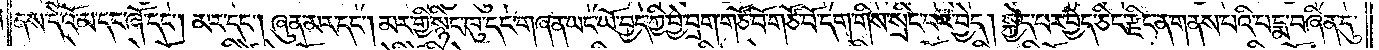ནས་དེ་འོ་མ་དང་ཞོ་དང༌། མར་དང༌། ཞུན་མར་དང༌། མར་གྱི་སྙིང་ཁུ་དང་གཞན་ཡང་ཡོ་བྱད་ཀྱི་བྱེ་བྲག་གཙོ་བོ་གཙོ་བོ་དག་གིས་སྲིང་བར་བྱེད། སྐྱེད་པར་བྱེད་ཅིང་རྫིང་ན་གནས་པའི་པདྨ་བཞིན་དུ་
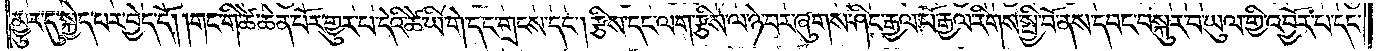མྱུར་དུ་སྐྱེད་པར་བྱེད་དོ། །གང་གི་ཚེ་ཆེན་པོར་གྱུར་པ་དེའི་ཚེ་ཡི་གེ་དང་གྲངས་དང༌། རྩིས་དང་ལག་རྩིས་ལ་ཉེ་བར་ཞུགས་ཤིང་རྒྱལ་པོ་རྒྱལ་རིགས་སྤྱི་བོ་ནས་དབང་བསྐུར་བ་ཡུལ་གྱི་འབྱོར་པ་དང་
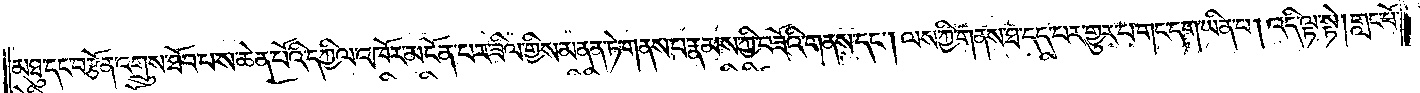མཐུ་དང་བརྩོན་འགྲུས་ཐོབ་པ་ས་ཆེན་པོའི་དཀྱིལ་འཁོར་མངོན་པར་ཟིལ་གྱིས་མནན་ཏེ་གནས་པ་རྣམས་ཀྱི་བཟོའི་གནས་དང༌། ལས་ཀྱི་གནས་ཐ་དད་པར་གྱུར་པ་གང་དག་ཡིན་པ། འདི་ལྟ་སྟེ། གླང་པོ་
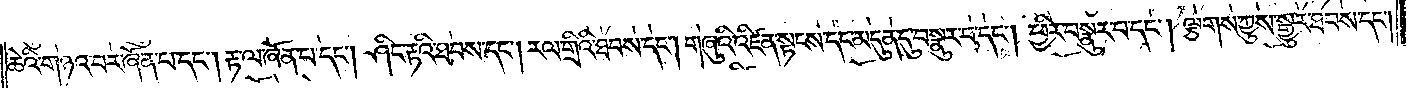ཆེའི་གཉའ་བར་ཞོན་པ་དང༌། རྟ་ལ་ཞོན་པ་དང༌། ཤིང་རྟའི་ཐབས་དང༌། རལ་གྲིའི་ཐབས་དང༌། གཞུའི་འཛིན་སྟངས་དང་མདུན་དུ་བསྣུར་བ་དང༌། ཕྱིར་བསྣུར་བ་དང༌། ལྕགས་ཀྱུས་སྒྱུར་ཐབས་དང༌།
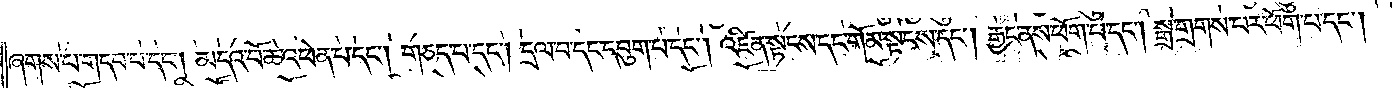ཞགས་པ་གདབ་པ་དང༌། མདའ་བོ་ཆེ་འཕེན་པ་དང༌། གཅད་པ་དང༌། དྲལ་བ་དང་དབུག་པ་དང༌། འཛིན་སྟངས་དང་གོམ་སྟངས་དང༌། རྒྱང་ནས་ཕོག་པ་དང༌། སྒྲ་གྲགས་པར་ཕོག་པ་དང༌།
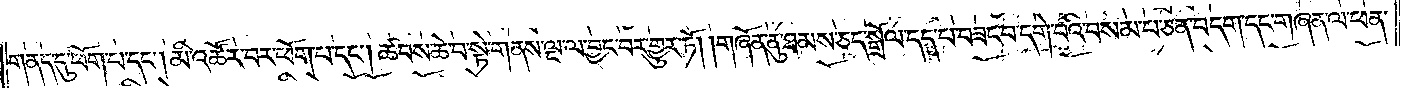གནད་དུ་ཕོག་པ་དང༌། མི་འཚོར་བར་ཕོག་པ་དང༌། ཚབས་ཆེ་བ་སྟེ་གནས་ལྔ་ལ་བྱང་བར་གྱུར་ཏོ། །གཞོན་ནུ་ཐམས་ཅད་སྒྲོལ་དད་པ་བཟང་བ་དགེ་བའི་བསམ་ཅན་བདག་དང་གཞན་ལ་ཕན་
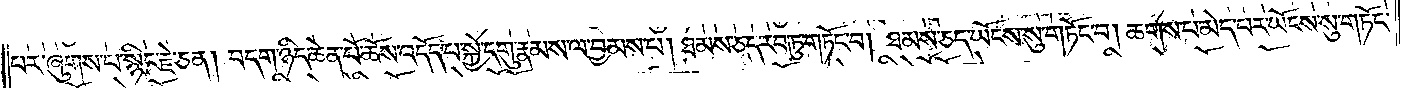པར་ཞུགས་པ་སྙིང་རྗེ་ཅན། བདག་ཉིད་ཆེན་པོ་ཆོས་འདོད་པ་སྐྱེ་དགུ་རྣམས་ལ་བྱམས་པ། ཐམས་ཅད་རབ་ཏུ་གཏོང་བ། ཐམས་ཅད་ཡོངས་སུ་གཏོང་བ། ཆགས་པ་མེད་པར་ཡོངས་སུ་གཏོང་
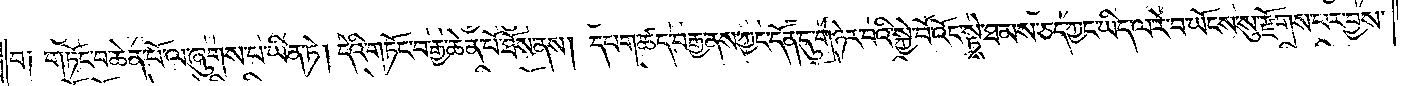བ། གཏོང་བ་ཆེན་པོ་ལ་ཞུགས་པ་ཡིན་ཏེ། དེའི་གཏོང་བ་རྒྱ་ཆེན་པོ་ཐོས་ནས། དཔག་ཚད་བ་རྒྱ་ནས་ཀྱང་དོན་དུ་གཉེར་བའི་སྐྱེ་བོ་འོང་སྟེ་ཐམས་ཅད་ཀྱང་ཡིད་ལ་རེ་བ་ཡོངས་སུ་རྫོགས་པར་བྱས་
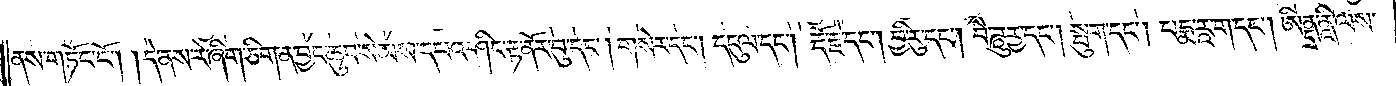ནས་གཏོང་ངོ༌། །དེ་ནས་རེ་ཞིག་ཅིག་ན་བྱང་ཆུབ་སེམས་དཔའ་ཤིང་རྟ་ནོར་བུ་དང༌། གསེར་དང༌། དངུལ་དང༌། རྡོ་རྗེ་དང༌། བྱི་རུ་དང༌། བཻ་ཌཱུཪྻ་དང༌། སྤུག་དང༌། པདྨ་རཱ་ག་དང༌། ཨིནྡྲ་ནཱི་ལས་
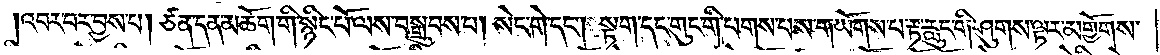འབར་བར་བྱས་པ། ཙན་དན་མཆོག་གི་སྙིང་པོ་ལས་བསྒྲུབས་པ། སེང་གེ་དང༌། སྟག་དང་གུང་གི་པགས་པས་གཡོགས་པ་རྟ་རླུང་གི་ཤུགས་ལྟར་མགྱོགས་
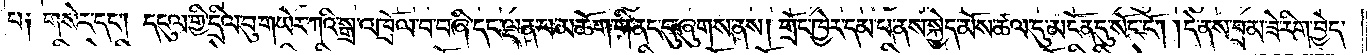པ། གསེར་དང༌། དངུལ་གྱི་དྲིལ་བུ་གཡེར་ཀའི་སྒྲ་འཁྲོལ་བ་བཞི་དང་ལྡན་པ་མཆོག་གི་ནང་དུ་ཞུགས་ནས། གྲོང་ཁྱེར་དམ་པ་ནས་སྐྱེད་མོས་ཚལ་དུ་མངོན་དུ་སོང་ངོ༌། །དེ་ནས་བྲམ་ཟེ་རིག་བྱེད་
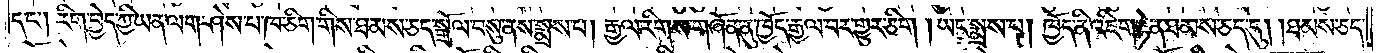དང༌། རིག་བྱེད་ཀྱི་ཡན་ལག་ཤེས་པ་ཁ་ཅིག་གིས་ཐམས་ཅད་སྒྲོལ་བསུ་ནས་སྨྲས་པ། རྒྱལ་རིགས་གཞོན་ནུ་ཁྱོད་རྒྱལ་བར་གྱུར་ཅིག །ཡང་སྨྲས་པ། ཁྱོད་ནི་འཇིག་རྟེན་ཐམས་ཅད་དུ། །ཐམས་ཅད་
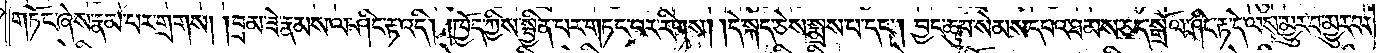གཏོང་ཞེས་རྣམ་པར་གྲགས། །བྲམ་ཟེ་རྣམས་ལ་ཤིང་རྟ་འདི། །ཁྱོད་ཀྱིས་སྦྱིན་པར་གཏང་བར་རིགས། །དེ་སྐད་ཅེས་སྨྲས་པ་དང༌། བྱང་ཆུབ་སེམས་དཔའ་ཐམས་ཅད་སྒྲོལ་ཤིང་རྟ་དེ་ལས་མྱུར་བ་མྱུར་བར་
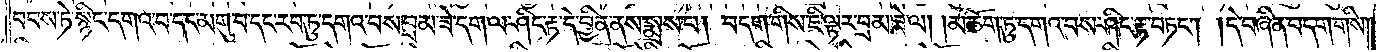བབས་ཏེ་སྙིང་དགའ་བ་དང་མགུ་བ་དང་རབ་ཏུ་དགའ་བས་བྲམ་ཟེ་དག་ལ་ཤིང་རྟ་དེ་བྱིན་ནས་སྨྲས་པ། བདག་གིས་ཇི་ལྟར་བྲམ་ཟེ་ལ། །མཆོག་ཏུ་དགའ་བས་ཤིང་རྟ་བཏང༌། །དེ་བཞིན་བདག་གིས་
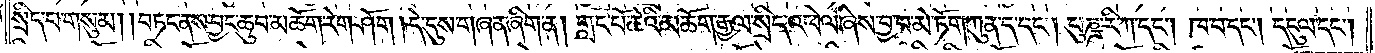སྲིད་པ་གསུམ། །བཏང་ནས་བྱང་ཆུབ་མཆོག་རེག་ཤོག །དེ་དུས་གཞན་ཞིག་ན། གླང་པོ་ཆེའི་མཆོག་རྒྱལ་སྲིད་འཕེལ་ཞེས་བྱ་བ་མེ་ཏོག་ཀུན་ད་དང༌། པུཎྜ་རི་ཀ་དང༌། ཁ་བ་དང༌། དངུལ་དང༌།
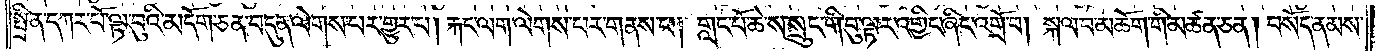སྤྲིན་དཀར་པོ་ལྟ་བུའི་མདོག་ཅན་བདུན་ལེགས་པར་གྱུར་པ། རྐང་ལགས་ལེགས་པར་གནས་པ། གླང་པོ་ཆེ་ས་སྲུང་གི་བུ་ལྟར་འགྱིང་ཞིང་འགྲོ་བ། སྐལ་པ་མཆོག་གི་མཚན་ཅན། བསོད་ནམས་
